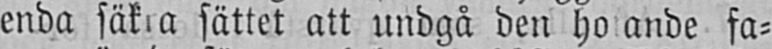enda säkra sättet att undgå den ho ande fa-
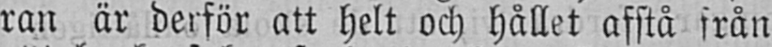ran är derför att helt och hållet afstå från
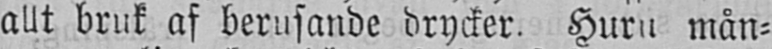allt bruk af berusande drycker. Huru mån-
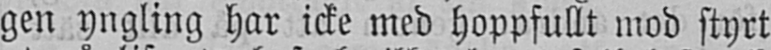gen yngling har icke med hoppfullt mod styrt
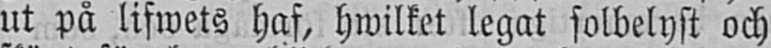ut på lifwets haf, hwilket legat solbelyst och
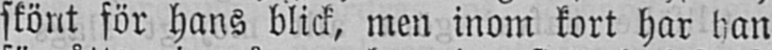skönt för hans blick, men inom kort har han
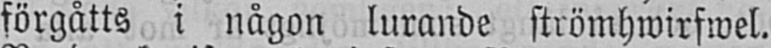förgåtts i någon lurande strömhwirfwel.
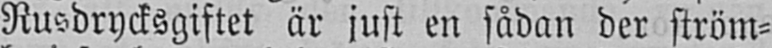Rusdrycksgiftet är just en sådan der ström-
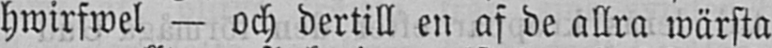hwirfwel — och dertill en af de allra wärsta
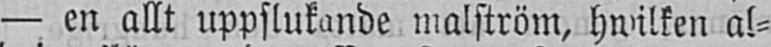— en allt uppslukande malström, hwilken al-
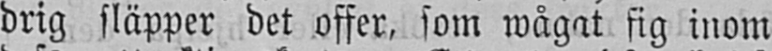drig släpper det offer, som wågat sig inom
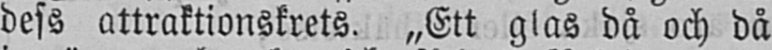dess attraktionskrets. „Ett glas då och då
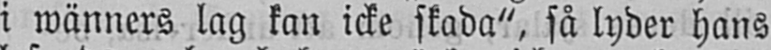i wänners lag kan icke skada", så lyder hans
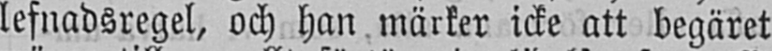lefnadsregel, och han märker icke att begäret
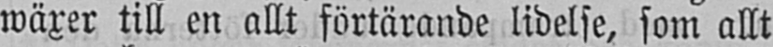wäxer till en allt förtärande lidelse, som allt
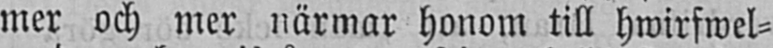mer och mer närmar honom till hwirfwel-
